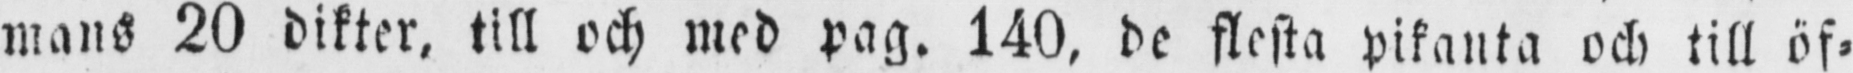mans 20 dikter, till och med pag. 140, de flesta pikanta och till öf-
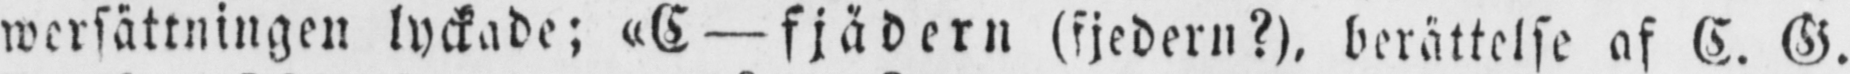wersättningen lyckade; «C —fjädern (fjedern?), berättelse af C. G.
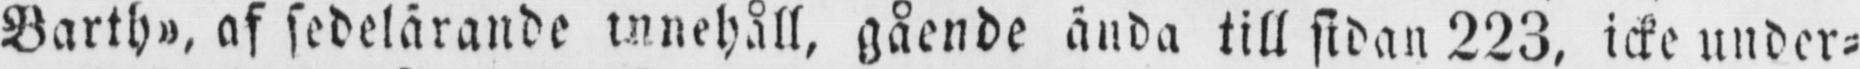Barth», af sedelärande innehåll, gående ända till sidan 223, icke under-
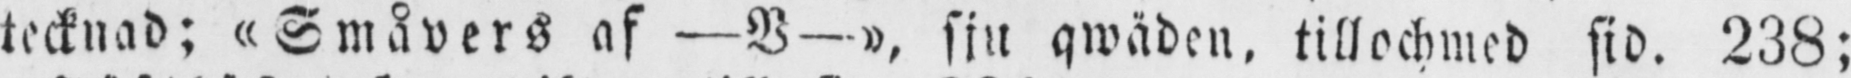tecknad; "Småvers af —V-", sju qwäden, tillochmed sid. 238;
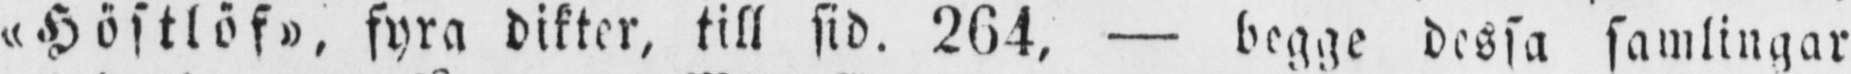"Höstlöf", fyra dikter, till sid. 264, — begge dessa samlingar
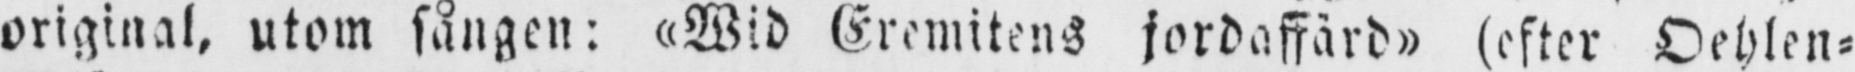original, utom sången: «Wid Eremitens jordasfärd» (efter Oehlen-
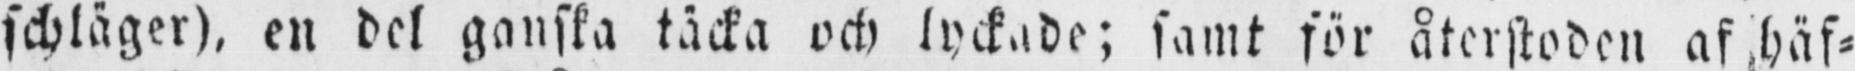schläger), en del ganska täcka ock lyckade; samt för återstoden af häf-
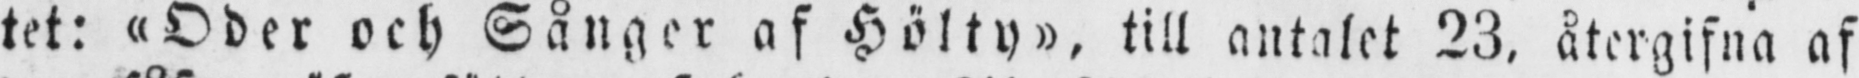tet: «Oder och Sånger af Hölty», till antalet 23, återgifna af
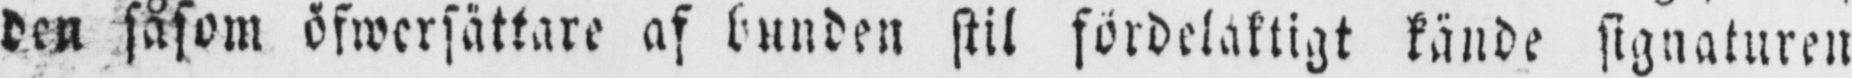den såsom öfwersättare af bunden stil fördelaktigt kände signaturen
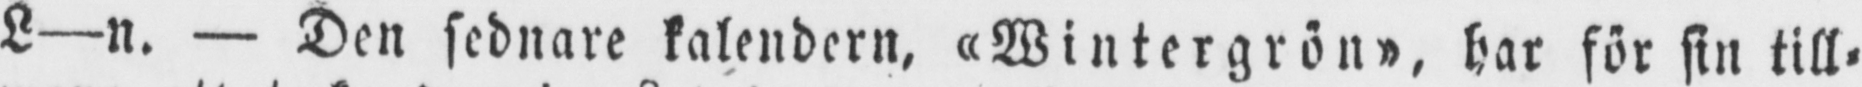L—n. — Den sednare kalendern, "Wintergrön", har för sin till-
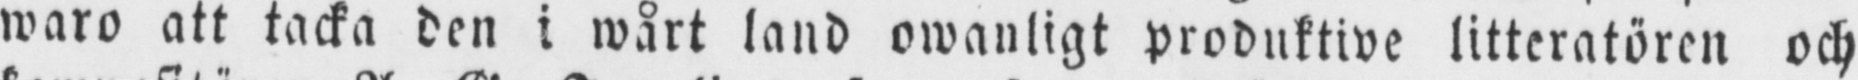waro att tacka den i wårt land owanligt produktive litteratören och
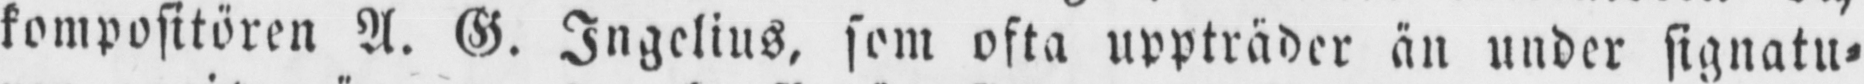kompositören A. G. Ingelius, som ofta uppträder än under signatu-
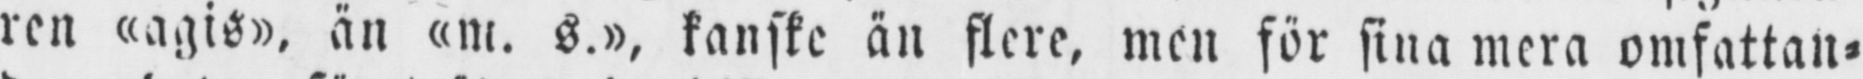ren «agis», än «m. s.», kanske än flere, men för sina mera omfattan-
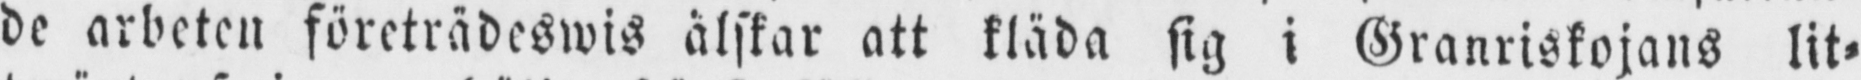de arbeten företrädeswis älskar att kläda sig i Granriskojans lit-
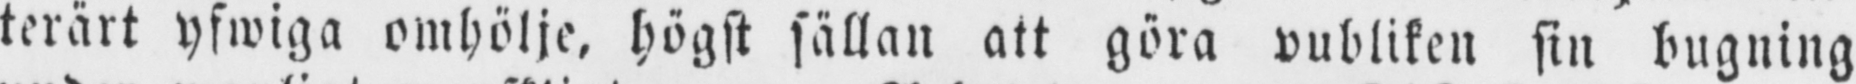terärt yfwiga omhölje, högst sällan att göra publiken sin bugning
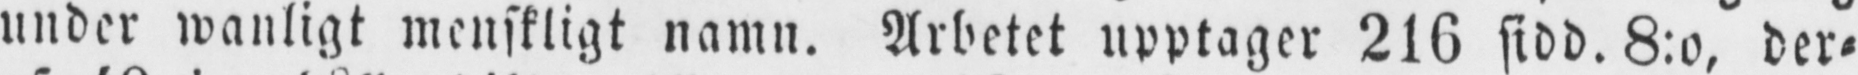under wanligt menskligt namn. Arbetet upptager 216 sidd. 8:o, der-
